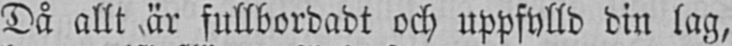Då allt är fullbordadt och uppfylld din lag,
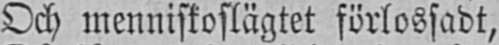Och menniskoslägtet förlossadt,
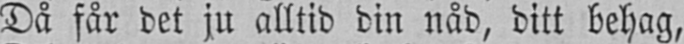Då får det ju alltid din nåd, ditt behag,
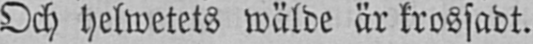Och helwetets wälde är krossadt.
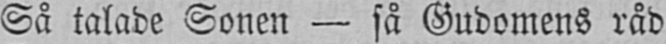Så talade Sonen — så Gudomens råd
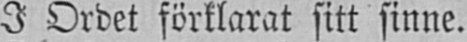I Ordet förklarat sitt sinne.
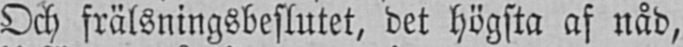Och frälsningsbeslutet, det högsta af nåd,
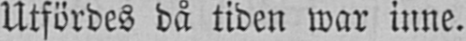Utfördes då tiden war inne.
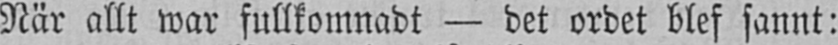När allt war fullkomnadt — det ordet blef sannt:
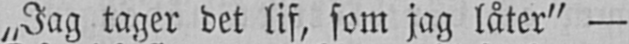„Jag tager det lif, som jag låter" —
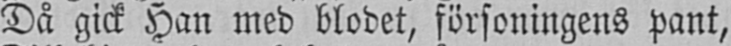Då gick Han med blodet, försoningens pant,
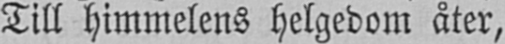Till himmelens helgedom åter,
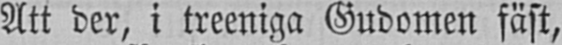Att der, i treeniga Gudomen fäst,
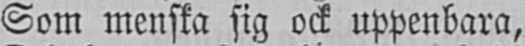Som menska sig ock uppenbara,
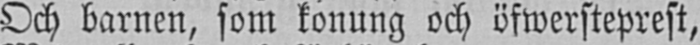Och barnen, som konung och öfwersteprest,
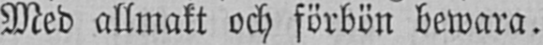Med allmakt och förbön bewara.
